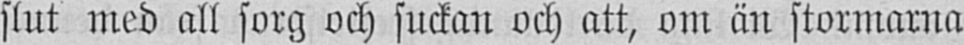slut med all sorg och suckan och att, om än stormarna
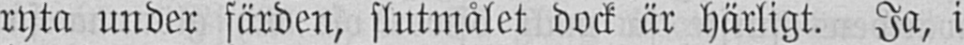ryta under färden, slutmålet dock är härligt. Ja, i
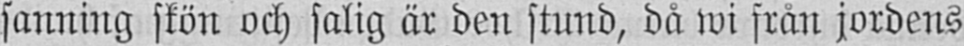sanning skön och salig är den stund, då wi från jordens
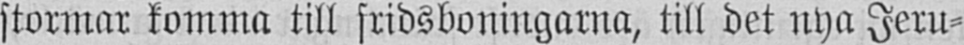stormar komma till fridsboningarna, till det nya Jeru-
